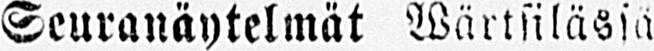— Seuranäytelmät Wärtsilässä
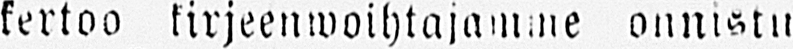kertoo kirjeenwoihtajamme onnistu-
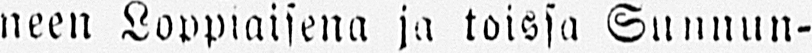neen Loppiaisena jo toissa Sunnun-
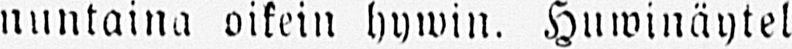nuntaina oikein hywin. Huwinäytel-
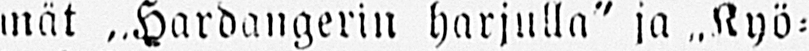nät „Hardangerin harjulla" ja „Kyö-
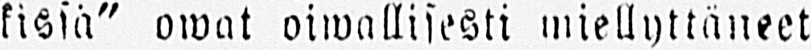kissä" owat oiwallisesti miellyttäneet
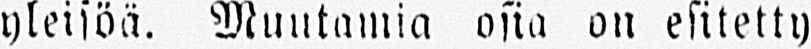yleisöä. Muutamia osia on esitetty
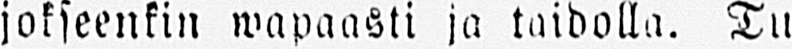jokseenkin wapaasti ja taidolla. Tu
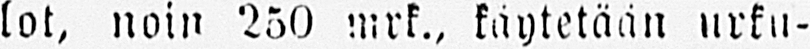lot, noin 250 mrk., käytetään urku-
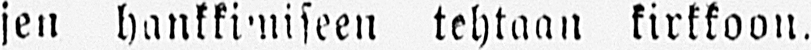jen hankkimiseen tehtaan kirkkoon.
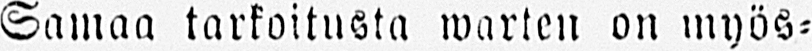Samaa tarkoitusta warten on myös-
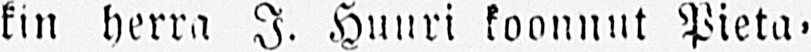kin herra I. Huuri koonnut Pieta-
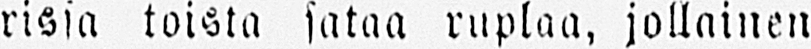rissa toista sataa ruplaa, jollainen
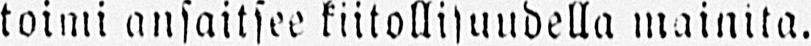toimi ansaitsee kiitollisuudella mainita.
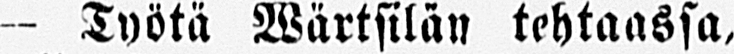— Työtä Wärtsilän tehtaassa,
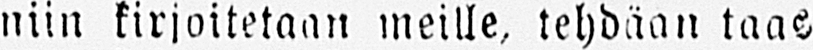niin kirjoitetaan meille, tehdään taas
